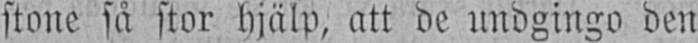stone så stor hjälp, att de undgingo den
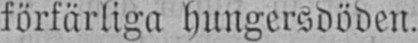förfärliga hungersdöden.
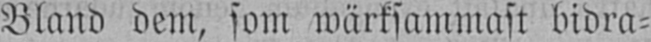Bland dem, som wärksammast bidra-
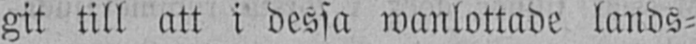git till att i dessa wanlottade lands-
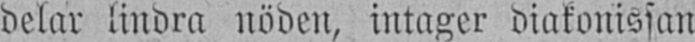delar lindra nöden, intager diakonissan
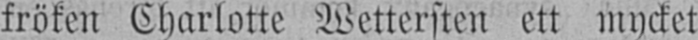fröken Charlotte Wettersten ett mycket
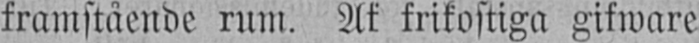framstående rum. Af frikostiga gifware
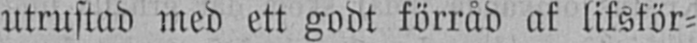utrustad med ett godt förråd af lifsför-
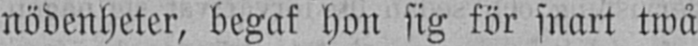nödenheter, begaf hon sig för snart twå
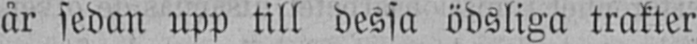år sedan upp till dessa ödsliga trakter
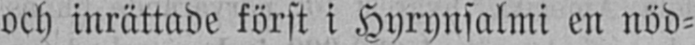och inrättade först i Hyrynsalmi en nöd-
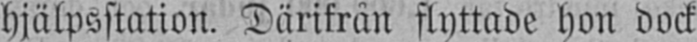hjälpsstation. Därifrån flyttade hon dock
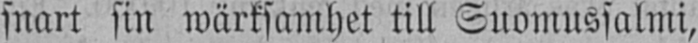snart sin wärksamhet till Suomussalmi,
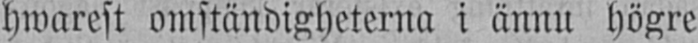hwarest omständigheterna i ännu högre
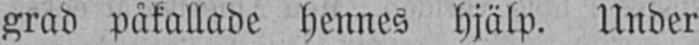grad påkallade hennes hjälp. Under
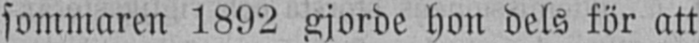sommaren 1892 gjorde hon dels för att
